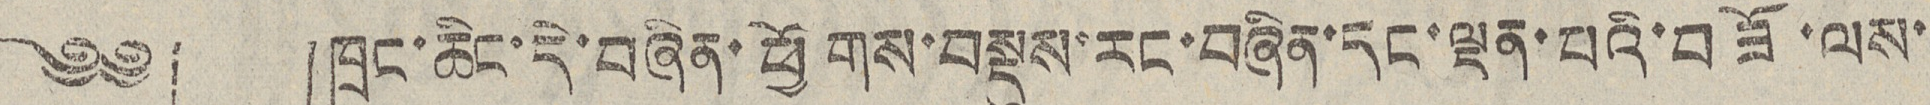༄༅། །ཁྲུང་ཆིང་དེ་བཞིན་ཕྱོགས་བསྡུས་རང་བཞིན་དང་ལྡན་པའི་བཟོ་ལས་
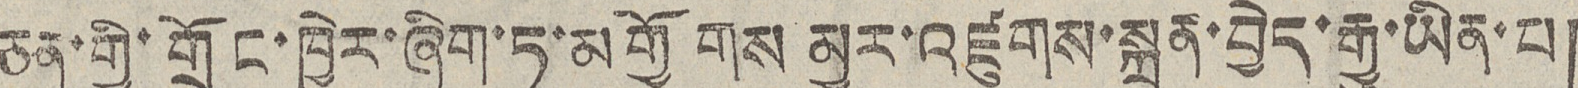ཅན་གྱི་གྲོང་ཁྱེར་ཞིག་ཏུ་མགྱོགས མྱུར་འཛུགས་སྐྲུན་བྱེད་རྒྱུ་ཡིན་པ།
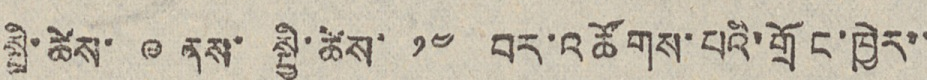སྤྱི་ཚོས་ ༩ ནས་ སྤྱི་ཚེས་ ༡༤ བར་འཚོགས་པའི་གྲོང་ཁྱེར་་
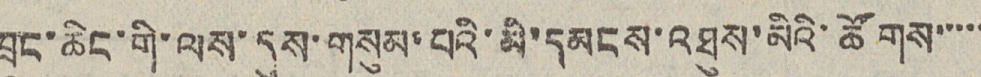ཁྲུང་ཆིང་གི་ལས་དུས་གསུམ་པའི་མི་དམངས་འཐུས་མིའི་ཚོགས་་་་་
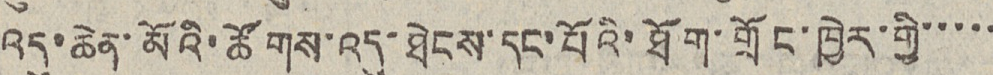འདུ་ཆེན་མོའི་ཚོགས་འདུ་ཐེངས་དང་པོའི་ཐོག་གྲོང་ཁྱེར་གྱི་་་་་
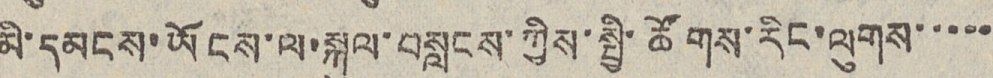མི་དམངས་ཡོངས་ལ་སྐུལ་བསླངས་ཀྱིས་སྤྱི་ཚོགས་རིང་ལུགས་་་་་
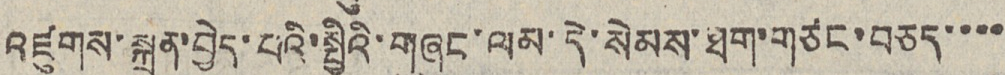འཛུགས་སྐྲུན་བྱེད་པའི་སྤྱིའི་གཞུང་ལམ་དེ་སེམས་ཐག་གཙང་བཅད་་་་
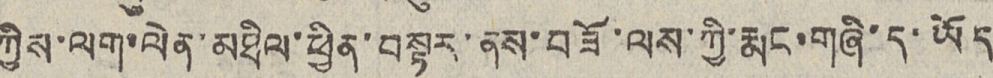ཀྱིས་ལག་ལེན་མཐིལ་ཕྱིན་བསྟར་ནས་བཟོ་ལས་ཀྱི་རྨང་གཞི་ད་ཡོད
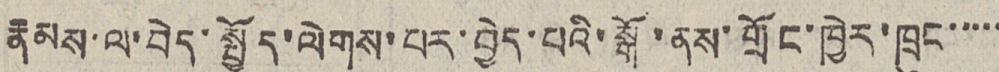རྣམས་ལ་བེད་སྤྱོད་ལེགས་པར་བྱེད་པའི་སྒོ་ནས་གྲོང་ཁྱེར་ཁྲུང་་་་་
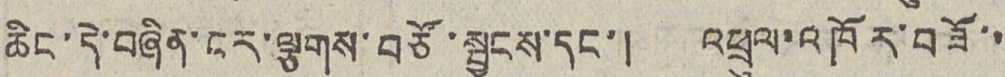ཆིང་དེ་བཞིན་ངར་ལྕགས་བཙོ་སྦྱངས་དང་། འཕྲུལ་འཁོར་བཟོ་་
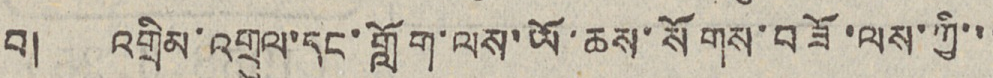བ། འགྲིམ་འགྲུལ་དང་གློག་ལས་ཡོ་ཆས་སོགས་བཟོ་ལས་ཀྱི་་་
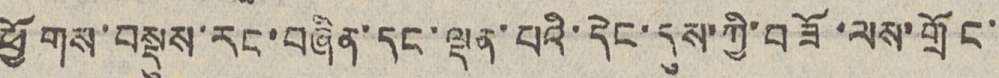ཕྱོགས་བསྡུས་རང་བཞིན་དང་ལྡན་པའི་དེང་དུས་ཀྱི་བཟོ་ལས་གྲོང་
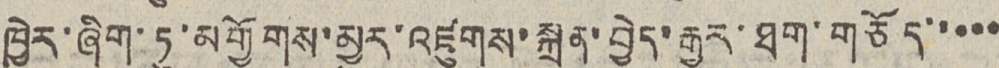ཁྱེར་ཞིག་ཏུ་མགྱོགས་མྱུར་འཛུགས་སྐྲུན་བྱེད་རྒྱུར་ཐག་གཅོད་་་་་
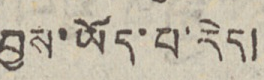བྱས་ཡོད་པ་རེད།
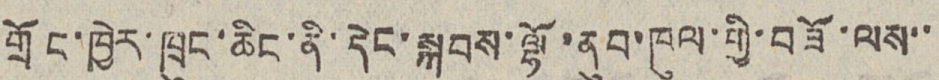གྲོང་ཁྱེར་ཁྲུང་ཆིང་ནི་དེང་སྐབས་ལྷོ་ནུབ་ཁུལ་གྱི་བཟོ་ལས་་
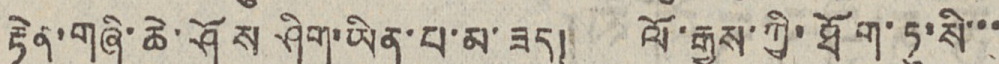རྟེན་གཞི་ཆེ་ཤོས ཤིག་ཡིན་པ་མ་ཟད། ལོ་རྒྱུས་ཀྱི་ཐོག་ཏུ་སི་་་
